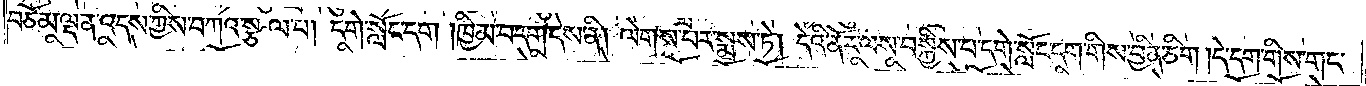བཅོམ་ལྡན་འདས་ཀྱིས་བཀའ་སྩལ་པ། དགེ་སློང་དག །ཁྱིམ་བདག་དེས་ནི། ལེགས་པར་སྨྲས་ཏེ། དེའི་ནོར་ལས་བསྐྱིས་པ་དགེ་སློང་དག་གིས་བྱིན་ཅིག །དེ་དག་གིས་གང་
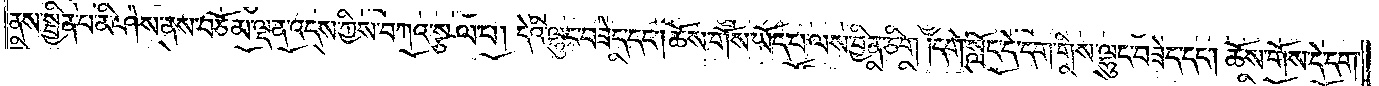ནས་སྦྱིན་པ་མི་ཤེས་ནས་བཅོམ་ལྡན་འདས་ཀྱིས་བཀའ་སྩལ་པ། དེའི་ལྷུང་བཟེད་དང༌། ཆོས་གོས་ཡོད་པ་ལས་བྱིན་ཅིག །དགེ་སློང་དེ་དག་གིས་ལྷུང་བཟེད་དང༌། ཆོས་གོས་དེ་དག་
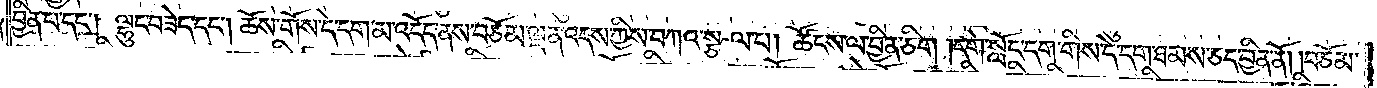བྱིན་པ་དང༌། ལྷུང་བཟེད་དང༌། ཆོས་གོས་དེ་དག་མ་འདོད་ནས་བཅོམ་ལྡན་འདས་ཀྱིས་བཀའ་སྩལ་པ། ཚོངས་ལ་བྱིན་ཅིག །དགེ་སློང་དག་གིས་དེ་དག་ཐམས་ཅད་བྱིན་ནོ། །བཅོམ་
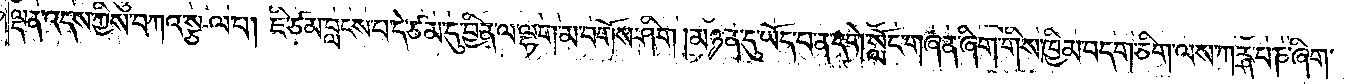ལྡན་འདས་ཀྱིས་བཀའ་སྩལ་པ། ཇི་ཙམ་བླངས་པ་དེ་ཙམ་དུ་བྱིན་ལ་ལྷག་མ་བགོས་ཤིག །མཉན་དུ་ཡོད་པ་ན་དགེ་སློང་གཞན་ཞིག་གིས་ཁྱིམ་བདག་ཅིག་ལས་ཀརྴ་པ་ཎ་ཞིག་
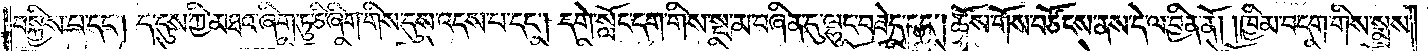བསྐྱིས་པ་དང༌། དེ་དུས་ཀྱི་མཐའ་ཞིག་ཏུ་ཅི་ཞིག་གིས་དུས་འདས་པ་དང༌། དགེ་སློང་དག་གིས་སྔ་མ་བཞིན་དུ་ལྷུང་བཟེད་དང༌། ཆོས་གོས་བཙོངས་ནས་དེ་ལ་བྱིན་ནོ། །ཁྱིམ་བདག་གིས་སྨྲས་
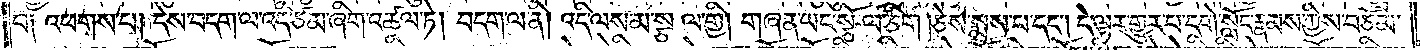པ༑ འཕགས་པ། དེས་བདག་ལ་འདི་ཙམ་ཞིག་འཚལ་ཏེ། བདག་ལ་ནི། འདི་ལས་མ་སྩལ་གྱི། གཞན་ཡང་སྩོལ་ཅིག །ཅེས་སྨྲས་པ་དང༌། དེ་ལྟར་གྱུར་པ་དགེ་སློང་རྣམས་ཀྱིས་བཅོམ་
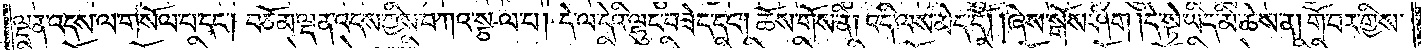ལྡན་འདས་ལ་གསོལ་པ་དང༌། བཅོམ་ལྡན་འདས་ཀྱིས་བཀའ་སྩལ་པ། དེ་ལ་དེའི་ལྷུང་བཟེད་དང༌། ཆོས་གོས་ནི། འདི་ལས་མེད་དོ། །ཞེས་སྒོས་ཤིག །དེ་སྟེ་ཡིད་མི་ཆེས་ན། གོ་བར་གྱིས་
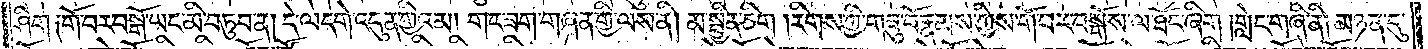ཤིག ༑གོ་བར་བསྒོ་ཡང་མི་བཏུབ་ན། དེ་ལ་དགེ་འདུན་གྱིའམ། གང་ཟག་གཞན་གྱི་ལས་ནི། མ་སྦྱིན་ཅིག །རིགས་ཀྱི་གཟུ་བོ་རྣམས་ཀྱིས་གོ་བར་བསྒོས་ལ་ཐོང་ཞིག །གླེང་གཞི་ནི། མཉན་དུ་
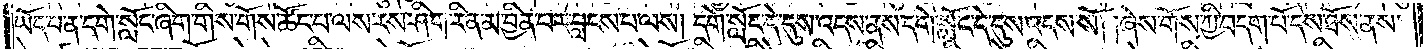ཡོང་བ་ན་དགེ་སློང་ཞིག་གིས་གོས་ཚོང་པ་ལས་རས་ཤིག་རིན་མ་བྱིན་པར་བླངས་པ་ལས། དགེ་སློང་དེ་དུས་འདས་ནས་དགེ་སློང་དེ་དུས་འདས་སོ། །ཞེས་གོས་ཀྱི་བདག་པོ་དེས་ཐོས་ནས་
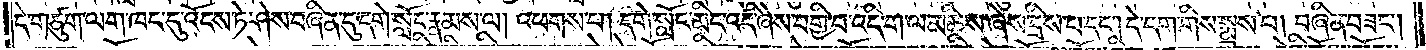དེ་གཙུག་ལག་ཁང་དུ་འོངས་ཏེ་ཤེས་བཞིན་དུ་དགེ་སློང་རྣམས་ལ། འཕགས་པ། དགེ་སློང་མིང་འདི་ཞེས་བགྱི་བ་འདི་ག་ལ་མཆིས་ཞེས་དྲིས་པ་དང༌། དེ་དག་གིས་སྨྲས་པ། བཞིན་བཟང༌།
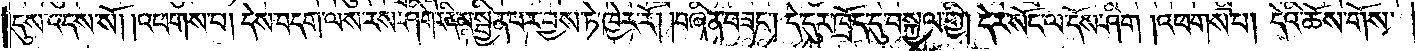དུས་འདས་སོ། །འཕགས་པ། དེས་བདག་ལས་རས་ཤིག་རིན་མ་སྦྱིན་པར་བྱས་ཏེ་ཁྱེར་རོ། །བཞིན་བཟང༌། དེ་དུར་ཁྲོད་དུ་བསྐྱལ་གྱི། དེར་སོང་ལ་དོས་ཤིག །འཕགས་པ། དེའི་ཆོས་གོས་
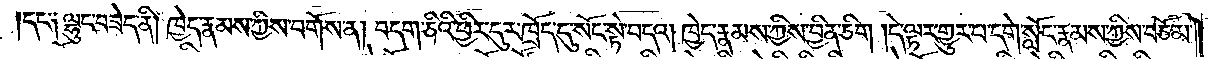དང་༑ ལྷུང་བཟེད་ནི། ཁྱེད་རྣམས་ཀྱིས་བགོས་ན། བདག་ཅིའི་ཕྱིར་དུར་ཁྲོད་དུ་སོང་སྟེ་བདའ། ཁྱེད་རྣམས་ཀྱིས་བྱིན་ཅིག །དེ་ལྟར་གྱུར་པ་དགེ་སློང་རྣམས་ཀྱིས་བཅོམ་
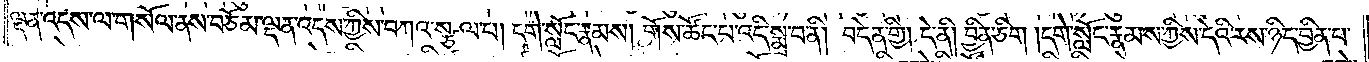ལྡན་འདས་ལ་གསོལ་ནས་བཅོམ་ལྡན་འདས་ཀྱིས་བཀའ་སྩལ་པ། དགེ་སློང་རྣམས། གོས་ཚོང་པ་འདི་སྨྲ་བ་ནི། བདེན་གྱི། དེ་ནི། བྱིན་ཅིག །དགེ་སློང་རྣམས་ཀྱིས་དེའི་རས་ཉིད་བྱིན་པ་
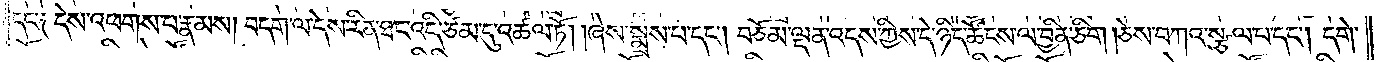དང་༑ དེས་འཕགས་པ་རྣམས། བདག་ལ་དེས་རིན་ཐང་འདི་ཙམ་དུ་འཚལ་ཏོ། །ཞེས་སྨྲས་པ་དང༌། བཅོམ་ལྡན་འདས་ཀྱིས་དེ་ཉིད་ཚོངས་ལ་བྱིན་ཅིག །ཅེས་བཀའ་སྩལ་པ་དང༌། དགེ་
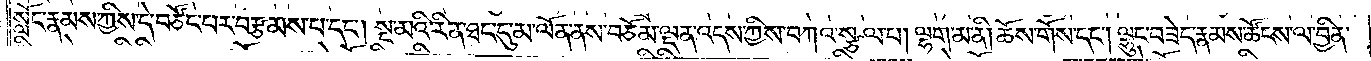སློང་རྣམས་ཀྱིས་དེ་བཙོང་པར་བརྩམས་པ་དང༌། སྔ་མའི་རིན་ཐང་དུ་མ་ལོན་ནས་བཅོམ་ལྡན་འདས་ཀྱིས་བཀའ་སྩལ་པ། ལྷག་མ་ནི། ཆོས་གོས་དང༌། ལྷུང་བཟེད་རྣམས་ཚོངས་ལ་བྱིན་
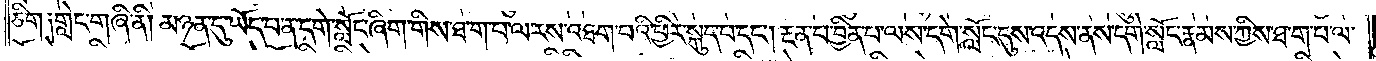ཅིག༑ གླེང་གཞི་ནི། མཉན་དུ་ཡོད་པ་ན་དགེ་སློང་ཞིག་གིས་ཐ་ག་པ་ལ་རས་འཐག་པའི་ཕྱིར་སྐུད་པ་དང༌། རྔན་པ་བྱིན་པ་ལས་དགེ་སློང་དུས་འདས་ནས་དགེ་སློང་རྣམས་ཀྱིས་ཐ་ག་པ་ལ་
